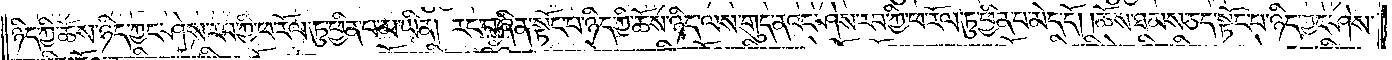ཉིད་ཀྱི་ཆོས་ཉིད་ཀྱང་ཤེས་རབ་ཀྱི་ཕ་རོལ་ཏུ་ཕྱིན་པ་མ་ཡིན། རང་བཞིན་སྟོང་པ་ཉིད་ཀྱི་ཆོས་ཉིད་ལས་གུད་ནའང་ཤེས་རབ་ཀྱི་ཕ་རོལ་ཏུ་ཕྱིན་པ་མེད་དོ། །ཆོས་ཐམས་ཅད་སྟོང་པ་ཉིད་ཀྱང་ཤེས་
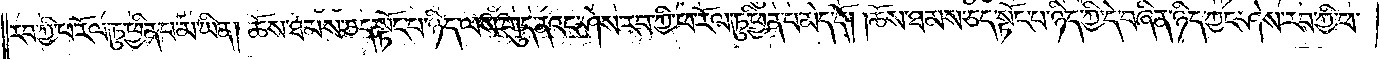རབ་ཀྱི་ཕ་རོལ་ཏུ་ཕྱིན་པ་མ་ཡིན། ཆོས་ཐམས་ཅད་སྟོང་པ་ཉིད་ལས་གུད་ནའང་ཤེས་རབ་ཀྱི་ཕ་རོལ་ཏུ་ཕྱིན་པ་མེད་དོ། །ཆོས་ཐམས་ཅད་སྟོང་པ་ཉིད་ཀྱི་དེ་བཞིན་ཉིད་ཀྱང་ཤེས་རབ་ཀྱི་ཕ་
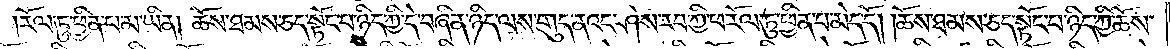རོལ་ཏུ་ཕྱིན་པ་མ་ཡིན། ཆོས་ཐམས་ཅད་སྟོང་པ་ཉིད་ཀྱི་དེ་བཞིན་ཉིད་ལས་གུད་ནའང་ཤེས་རབ་ཀྱི་ཕ་རོལ་ཏུ་ཕྱིན་པ་མེད་དོ། །ཆོས་ཐམས་ཅད་སྟོང་པ་ཉིད་ཀྱི་ཆོས་
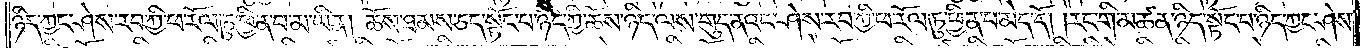ཉིད་ཀྱང་ཤེས་རབ་ཀྱི་ཕ་རོལ་ཏུ་ཕྱིན་པ་མ་ཡིན། ཆོས་ཐམས་ཅད་སྟོང་པ་ཉིད་ཀྱི་ཆོས་ཉིད་ལས་གུད་ནའང་ཤེས་རབ་ཀྱི་ཕ་རོལ་ཏུ་ཕྱིན་པ་མེད་དོ། །རང་གི་མཚན་ཉིད་སྟོང་པ་ཉིད་ཀྱང་ཤེས་
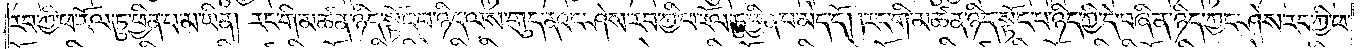རབ་ཀྱི་ཕ་རོལ་ཏུ་ཕྱིན་པ་མ་ཡིན། རང་གི་མཚན་ཉིད་སྟོང་པ་ཉིད་ལས་གུད་ནའང་ཤེས་རབ་ཀྱི་ཕ་རོལ་ཏུ་ཕྱིན་པ་མེད་དོ། །རང་གི་མཚན་ཉིད་སྟོང་པ་ཉིད་ཀྱི་དེ་བཞིན་ཉིད་ཀྱང་ཤེས་རབ་ཀྱི་ཕ་
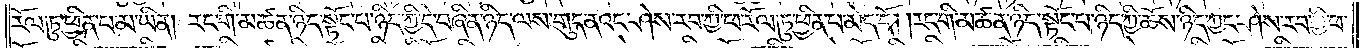རོལ་ཏུ་ཕྱིན་པ་མ་ཡིན། རང་གི་མཚན་ཉིད་སྟོང་པ་ཉིད་ཀྱི་དེ་བཞིན་ཉིད་ལས་གུད་ནའང་ཤེས་རབ་ཀྱི་ཕ་རོལ་ཏུ་ཕྱིན་པ་མེད་དོ། །རང་གི་མཚན་ཉིད་སྟོང་པ་ཉིད་ཀྱི་ཆོས་ཉིད་ཀྱང་ཤེས་རབ་ཀྱི་ཕ་
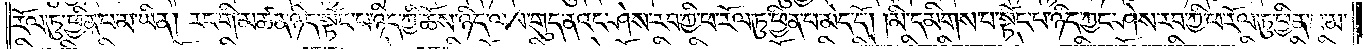རོལ་ཏུ་ཕྱིན་པ་མ་ཡིན། རང་གི་མཚན་ཉིད་སྟོང་པ་ཉིད་ཀྱི་ཆོས་ཉིད་ལས་གུད་ནའང་ཤེས་རབ་ཀྱི་ཕ་རོལ་ཏུ་ཕྱིན་པ་མེད་དོ། །མི་དམིགས་པ་སྟོང་པ་ཉིད་ཀྱང་ཤེས་རབ་ཀྱི་ཕ་རོལ་ཏུ་ཕྱིན་པ་མ་
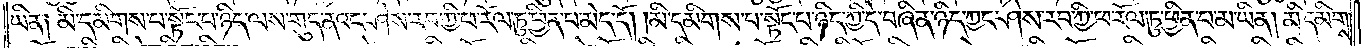ཡིན། མི་དམིགས་པ་སྟོང་པ་ཉིད་ལས་གུད་ནའང་ཤེས་རབ་ཀྱི་ཕ་རོལ་ཏུ་ཕྱིན་པ་མེད་དོ། །མི་དམིགས་པ་སྟོང་པ་ཉིད་ཀྱི་དེ་བཞིན་ཉིད་ཀྱང་ཤེས་རབ་ཀྱི་ཕ་རོལ་ཏུ་ཕྱིན་པ་མ་ཡིན། མི་དམིགས་
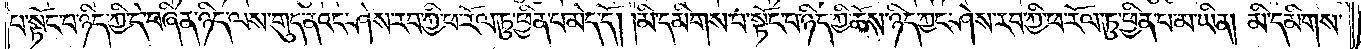པ་སྟོང་པ་ཉིད་ཀྱི་དེ་བཞིན་ཉིད་ལས་གུད་ནའང་ཤེས་རབ་ཀྱི་ཕ་རོལ་ཏུ་ཕྱིན་པ་མེད་དོ། །མི་དམིགས་པ་སྟོང་པ་ཉིད་ཀྱི་ཆོས་ཉིད་ཀྱང་ཤེས་རབ་ཀྱི་ཕ་རོལ་ཏུ་ཕྱིན་པ་མ་ཡིན། མི་དམིགས་
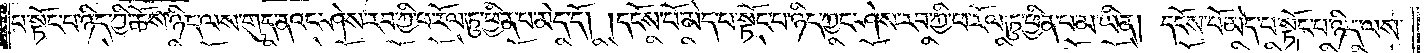པ་སྟོང་པ་ཉིད་ཀྱི་ཆོས་ཉིད་ལས་གུད་ནའང་ཤེས་རབ་ཀྱི་ཕ་རོལ་ཏུ་ཕྱིན་པ་མེད་དོ། །དངོས་པོ་མེད་པ་སྟོང་པ་ཉིད་ཀྱང་ཤེས་རབ་ཀྱི་ཕ་རོལ་ཏུ་ཕྱིན་པ་མ་ཡིན། དངོས་པོ་མེད་པ་སྟོང་པ་ཉིད་ལས་
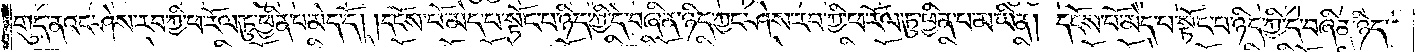གུད་ནའང་ཤེས་རབ་ཀྱི་ཕ་རོལ་ཏུ་ཕྱིན་པ་མེད་དོ། །དངོས་པོ་མེད་པ་སྟོང་པ་ཉིད་ཀྱི་དེ་བཞིན་ཉིད་ཀྱང་ཤེས་རབ་ཀྱི་ཕ་རོལ་ཏུ་ཕྱིན་པ་མ་ཡིན། དངོས་པོ་མེད་པ་སྟོང་པ་ཉིད་ཀྱི་དེ་བཞིན་ཉིད་
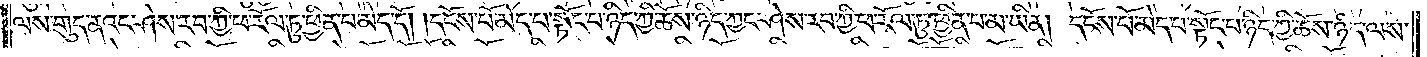ལས་གུད་ནའང་ཤེས་རབ་ཀྱི་ཕ་རོལ་ཏུ་ཕྱིན་པ་མེད་དོ། །དངོས་པོ་མེད་པ་སྟོང་པ་ཉིད་ཀྱི་ཆོས་ཉིད་ཀྱང་ཤེས་རབ་ཀྱི་ཕ་རོལ་ཏུ་ཕྱིན་པ་མ་ཡིན། དངོས་པོ་མེད་པ་སྟོང་པ་ཉིད་ཀྱི་ཆོས་ཉིད་ལས་
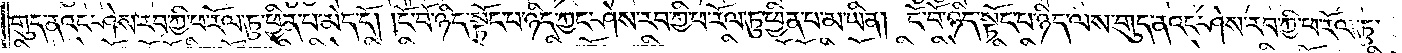གུད་ནའང་ཤེས་རབ་ཀྱི་ཕ་རོལ་ཏུ་ཕྱིན་པ་མེད་དོ། །ངོ་བོ་ཉིད་སྟོང་པ་ཉིད་ཀྱང་ཤེས་རབ་ཀྱི་ཕ་རོལ་ཏུ་ཕྱིན་པ་མ་ཡིན། ངོ་བོ་ཉིད་སྟོང་པ་ཉིད་ལས་གུད་ནའང་ཤེས་རབ་ཀྱི་ཕ་རོལ་ཏུ་
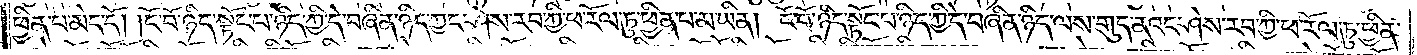ཕྱིན་པ་མེད་དོ། །ངོ་བོ་ཉིད་སྟོང་པ་ཉིད་ཀྱི་དེ་བཞིན་ཉིད་ཀྱང་ཤེས་རབ་ཀྱི་ཕ་རོལ་ཏུ་ཕྱིན་པ་མ་ཡིན། ངོ་བོ་ཉིད་སྟོང་པ་ཉིད་ཀྱི་དེ་བཞིན་ཉིད་ལས་གུད་ནའང་ཤེས་རབ་ཀྱི་ཕ་རོལ་ཏུ་ཕྱིན་
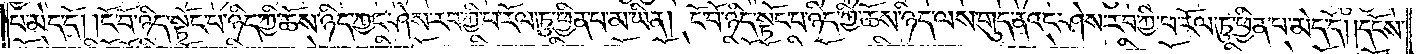པ་མེད་དོ། །ངོ་བོ་ཉིད་སྟོང་པ་ཉིད་ཀྱི་ཆོས་ཉིད་ཀྱང་ཤེས་རབ་ཀྱི་ཕ་རོལ་ཏུ་ཕྱིན་པ་མ་ཡིན། ངོ་བོ་ཉིད་སྟོང་པ་ཉིད་ཀྱི་ཆོས་ཉིད་ལས་གུད་ནའང་ཤེས་རབ་ཀྱི་ཕ་རོལ་ཏུ་ཕྱིན་པ་མེད་དོ། །དངོས་
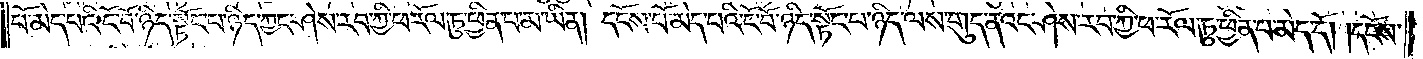པོ་མེད་པའི་ངོ་བོ་ཉིད་སྟོང་པ་ཉིད་ཀྱང་ཤེས་རབ་ཀྱི་ཕ་རོལ་ཏུ་ཕྱིན་པ་མ་ཡིན། དངོས་པོ་མེད་པའི་ངོ་བོ་ཉིད་སྟོང་པ་ཉིད་ལས་གུད་ནའང་ཤེས་རབ་ཀྱི་ཕ་རོལ་ཏུ་ཕྱིན་པ་མེད་དོ། །དངོས་
